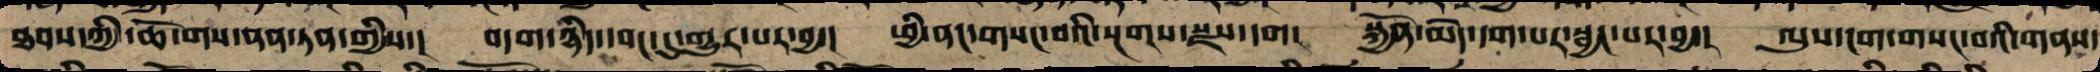ཐབས་ཀྱི་ཆོ་གས་ནན་ཏན་གྱིས་། བདག་ཉིད་དབང་དུ་གྱུར་པར་བྱ་། ཕྱི་ནང་གསང་བའི་སྔགས་སྫས་དག། སྐྱོན་མེད་དག་པར་སྦྱང་བར་བྱ་། ལུས་ངག་གསང་བའི་གནས་
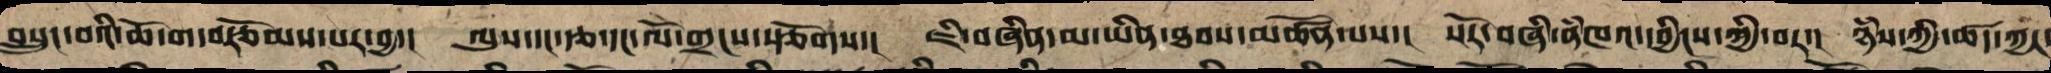བསྲུང་བའི་ཆོ་གས་རྩོམས་པར་བྱ་། ལུས་དང་རྩ་དང་ལོ་གྲངས་རྩོགས་། ཇི་བཞིན་མ་ཡིན་ཐབས་མཚོན་པས་། སོར་བཞི་ནཾཁའ་དབྱིངས་ཀྱི་བར་། ཉཾས་ཀྱི་ཚད་ཀྱང་
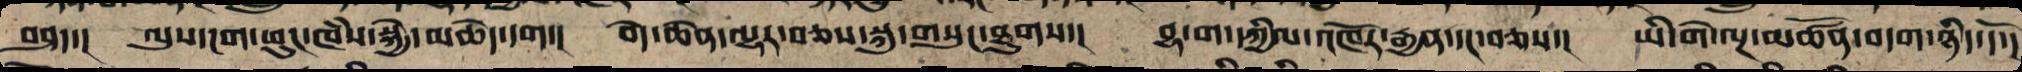བཤད་། ལུས་ངག་ཕུང་ཁཾས་སྐྱེ་མཆེད་དག། བདེ་ཆེན་ལྷར་བཅས་སྐུ་གསུང་ཐུགས་། བྷ་ག་དཀྱིལ་འཁོར་རྒྱན་དང་བཅས་། ཡེ་ཤེས་ལྔ་མཚོན་བདག་ཉིད་དོ་།
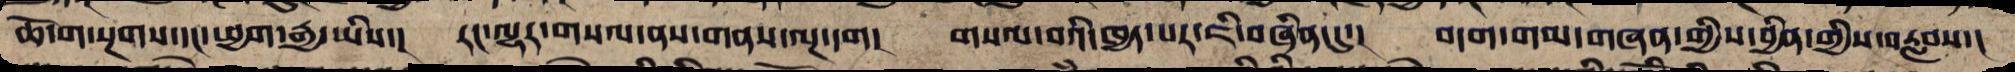ཆོ་ག་སྔགས་དང་ཕྱག་རྒྱ་ཡིས་། རང་ལྷར་གསལ་ནས་གནས་ལྔ་དག། གསལ་བའི་ཁྱད་པར་ཇི་བཞིན་དུ་། བདག་གམ་གཞན་གྱིས་བྱིན་གྱིས་བརླབས་།
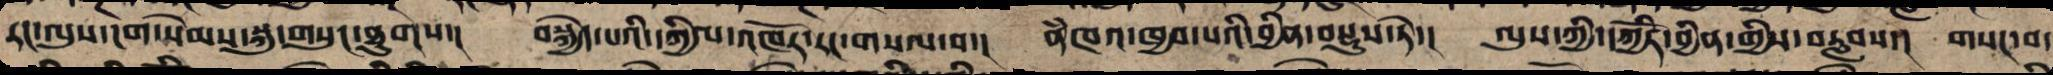རང་ལུས་ངག་སེམས་སྐུ་གསུང་ཐུགས་། བསྐྱེད་པའི་དཀྱིལ་འཁོར་རང་གསལ་བ་། ནཾཁའ་ཁྱབ་པའི་བྱིན་བསྡུས་ཏེ་། ལུས་ཀྱི་དཀྱིོར་བྱིན་གྱིས་བརླབས་། གསང་བ་
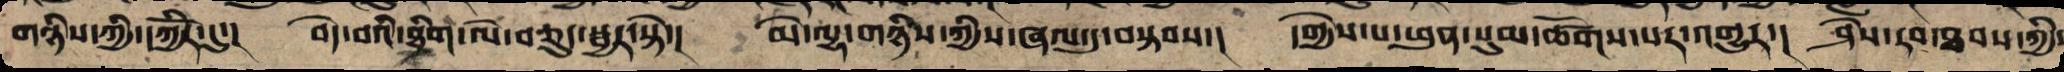གཉིས་ཀྱི་དཀྱིོར་དུ་། བདེ་བའི་ཐིག་ལེ་བཅུད་སྦྱར་ཏེ་། མེ་ལྷ་གཉིས་ཀྱི་ཞལ་དུ་བསྟབས་། དགྱེས་པ་ཕུན་སུམ་ཚོགས་པར་འགྱུར་། ཤེས་རབ་ཐབས་ཀྱིས་
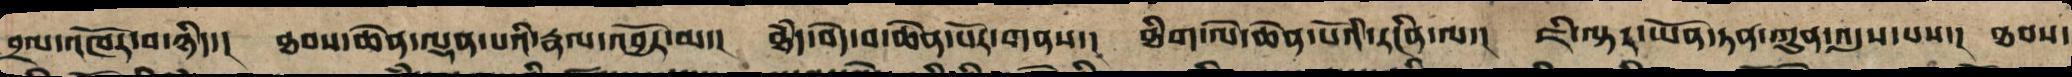བྲལ་འཁོར་བ་ཉིད་། ཐབས་ཆེན་ལྡན་པའི་རྣལ་འབྱོར་ལ་། ཐཾད་བདེ་བ་ཆེན་པོར་གནས་། ཐིག་ལེ་ཆེན་པོའི་རངིན་ལ་། ཇི་ལྟར་ཡོན་ཏན་ཀུན་འདུས་པས་། ཐབས་
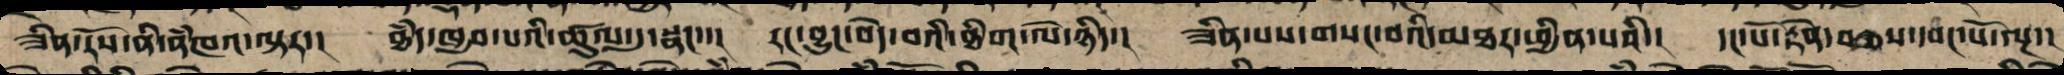ཟིན་རོས་ནི་ནཾཁའ་ལྟར་། ཐཾད་ཁྱབ་པའི་ཚུལ་དུ་སྣང་་། རང་བྱུང་བདེ་བའི་ཐིག་ལེ་ཉིད་། ཟིན་ནས་གསང་བའི་མཐར་ཕྱིན་པས་། དང་པོ་རྟེན་ཅན་དབང་པོ་ལྔ་།
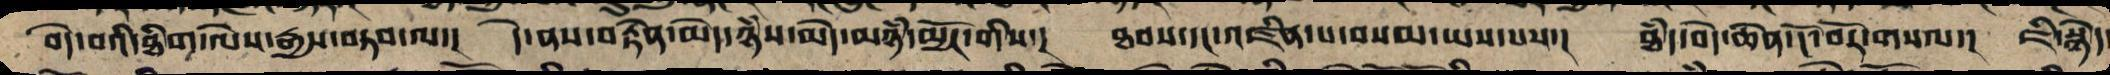བདེ་བའི་ཐིག་ལེས་རྒྱས་བཏབ་ལ་། དེ་ནས་རྟེན་མེད་ཉཾས་མྱོང་གིས་། ཐབས་དང་འཛིན་པ་བསམ་ཡས་པས་། ཐཾད་བདེ་ཆེན་ངོ་བོར་གསལ་། ཇི་སྙེད་
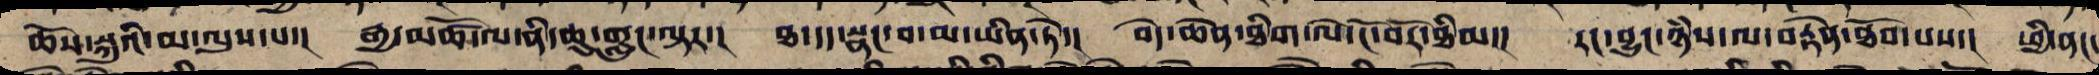ཆོས་སྐུའི་མ་ལུས་པ་། རྒྱ་མཚོ་ལ་ནི་ཆུ་གླུང་ལྟར་། ཐ་དད་སྣང་བ་མ་ཡིན་ཏེ་། བདེ་ཆེན་ཐིག་ལེའི་ངོ་བོར་ཐིམ་། རང་བྱུང་ཉཾས་ལ་བརྟེན་ཐོབ་པས་། ཕྱི་ནང་
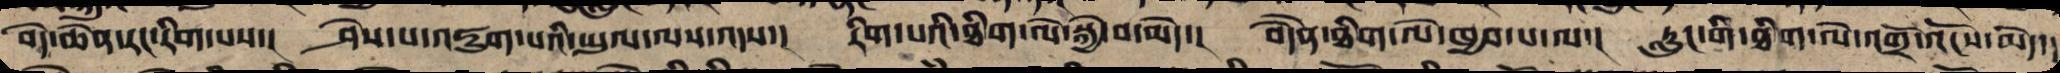བདེ་ཆེན་རང་རིག་པས་། ཤེས་པ་འཇུག་པའི་ཡུལ་ལས་འདས་། རིག་པའི་ཐིག་ལེ་སྐྱེ་བ་མེད་། བདཻན་ཐིག་ལེ་ཁྱབ་པ་ལ་། རླུང་དང་ཐིག་ལེ་འགྲོ་འོང་མེད་།
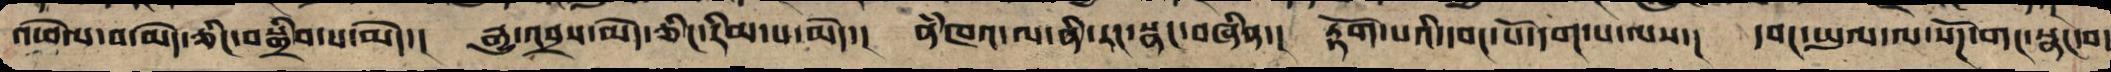འཕེལ་བ་མེད་ཅིང་འགྲིབ་པ་མེད་། རྒྱུ་འབྲས་མེད་ཅིང་རིམ་པ་མེད་། ནཾཁའ་ལ་ནི་རང་སྣང་བཞིན་། རྟོག་པའི་དབང་པོ་དག་པ་ལས་། དབང་ཡུལ་ལ་སོཌ་གང་སྣང་བ་
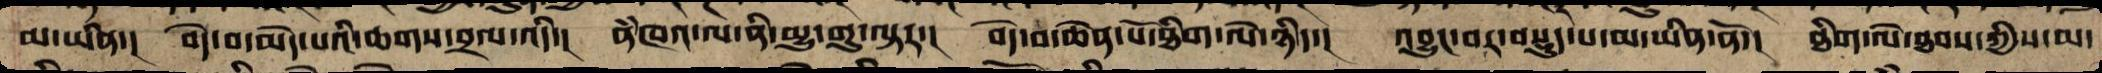མ་ཡིན་། བདེ་བ་མེད་པའི་ཆགས་བྲལ་འདི་། ནཾཁའ་ལ་ནི་མྱུ་གུ་ལྟར་། བདེ་བ་ཆེན་པོ་ཐིག་ལེ་ཉིད་། འབྱུང་བར་བསྡུས་པ་མ་ཡིན་ནོ་། ཐིག་ལེ་ཐབས་ཀྱིས་མ་
